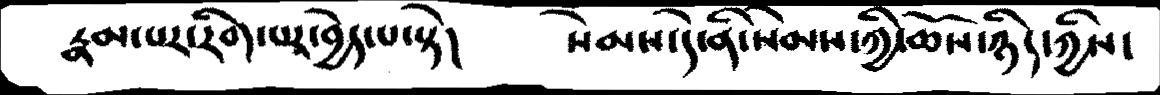རྣམ་པར་རིག་པར་བྱེད་པ་སྟེ།     སེམས་དེ་ནི་སེམས་ཀྱི་ཆོས་ཉིད་ཀྱིས་
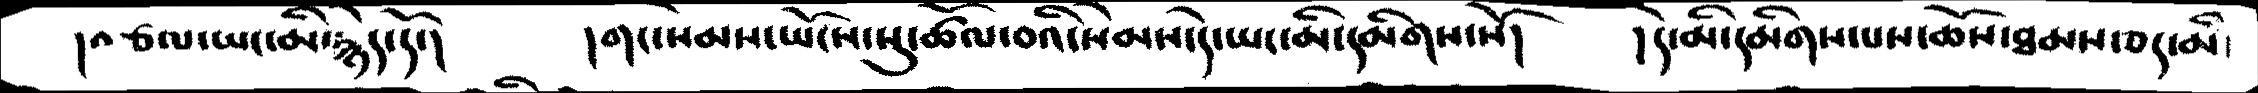།བཙལ་ཡང་མི་རྙེད་དོ་།      །གང་སེམས་ཡོངས་སུ་ཚོལ་བའི་སེམས་དེ་ཡང་མི་དམིགས་སོ།      །དེ་མི་དམིགས་པས་ཆོས་ཐམས་ཅད་མི
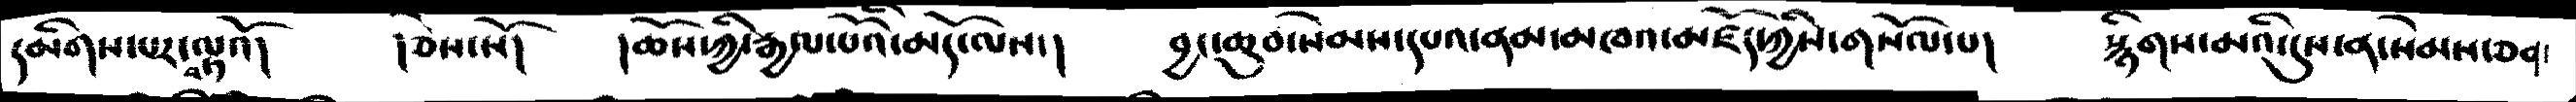དམིགས་པ་བལྟའོ།   །ཅེས་སོ།   །ཆོས་ཀྱི་རྒྱལ་པོའི་མདོ་ལས་།    བྱང་ཆུབ་སེམས་དཔའ་ནམ་མཁའ་མཛོད་ཀྱིས་གསོལ་པ།  སྙིགས་མའི་དུས་ན་སེམས་ཅན་
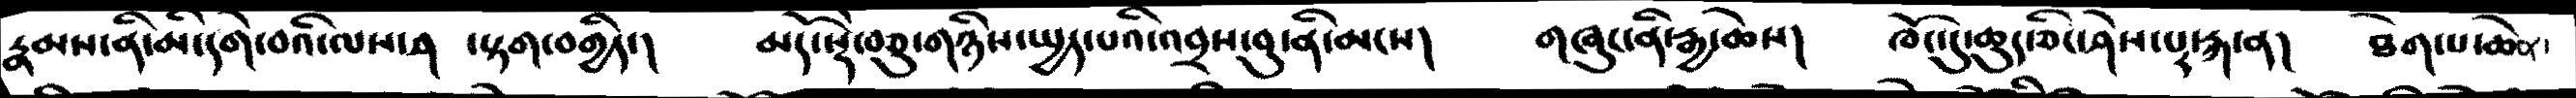རྣམས་ནི་མི་དགེ་བའི་ལས་ཤ ་སྟག་བགྱིད་།   མདོ་སྡེ་བཅུ་གཉིས་སྤྱད་པའི་འབྲས་བུ་ནི་མངས།   གཞུང་ནི་རྒྱ་ཆེས།  ཁོང་དུ་ཆུད་ཅིང་ཤེས་པར་རྐ་ན།  ཐེག་པ་ཆེན་
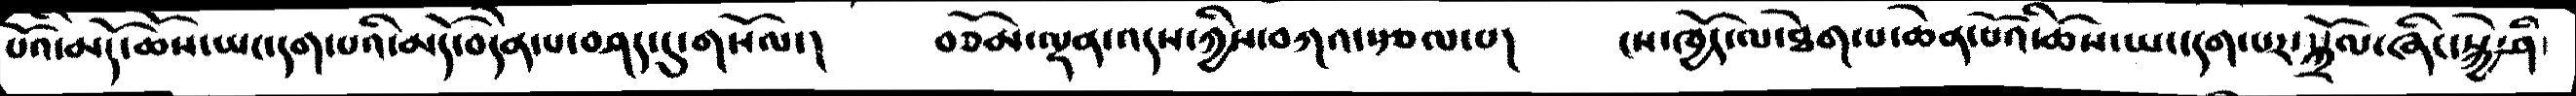པོའི་མདོ་ཆོས་ཡང་དག་པའི་མདོ་བདེན་པ་བཤད་དུ་གསོལ་།     བཅོམ་ལྡན་འདས་ཀྱིས་བཀའ་བརྩལ་པ།    ངས་ཁྱོད་ལ་ཐེག་པ་ཆེན་པོའི་ཆོས་ཡང་དག་པར་སྒྲོལ་ཞིང་སྐྱེ་ཤི་
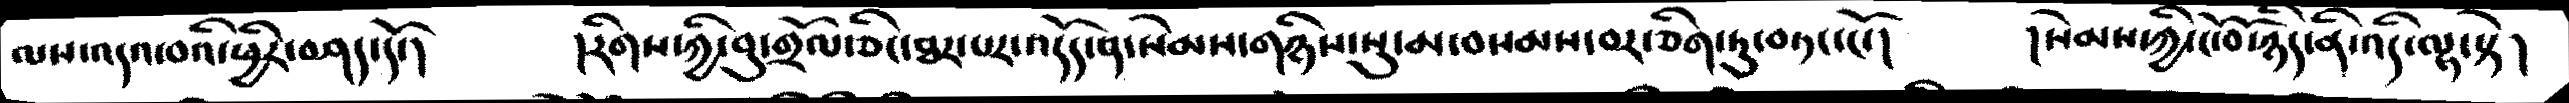ལས་འདའ་བའི་ཕྱིར་བཤད་དོ་།       །རིགས་ཀྱི་བུ་གྲོལ་ཅིང་ཐར་པར་འདོད་ན་སེམས་གཉིས་སུ་མ་བསམས་བར་ཅིག་ཏུ་བཏང་ངོ་།      །སེམས་ཀྱི་ངོ་བོ་ཉིད་ནི་འདི་ལྟ་སྟེ།
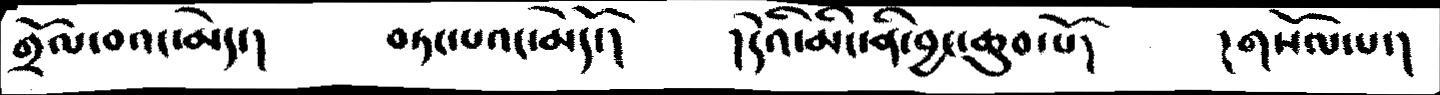གྲོལ་བའང་མེད་།    བཏང་པའང་མེདོ་།      །དེའི་མིང་ནི་བྱང་ཆུབ་པོ།        །གསོལ་པ་།
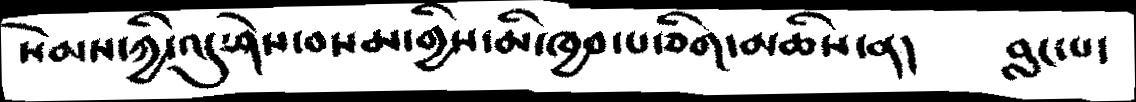སེམས་ཀྱི་འདུ་ཤེས་བསམ་གྱིས་མི་ཁྱབ་པ་ཅིག་མཆིས་ན།      བླང་པ་
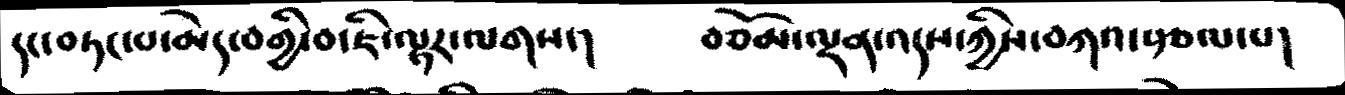དང་བཏང་པ་མེད་བགྱི་བ་ཇི་ལྟར་ལགས་།       བཅོམ་ལྡན་འདས་ཀྱིས་བཀའ་བརྩལ་པ།
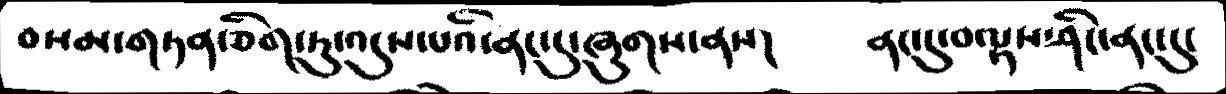བསམ་གཏན་ཅིག་ཏུ་འདུས་པའི་ནང་དུ་བཞུགས་ནས།    ནང་དུ་བལྟས་ཤིང་ནང་དུ་
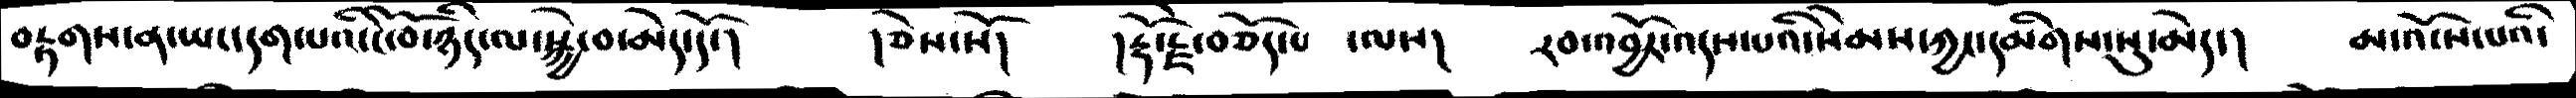བརྟགས་ན་ཡང་དག་པའི་ངོ་བོ་ཉིད་ལ་སྐྱེ་བ་མེད་དོ་།    །ཅེས་སོ།    །རྡོ་རྗེ་བཅོད་པ ་ལས།   རབ་འབྱོར་འདས་པའི་སེམས་ཀྱང་དམིགས་སུ་མེད་།     མ་འོངས་པའི་
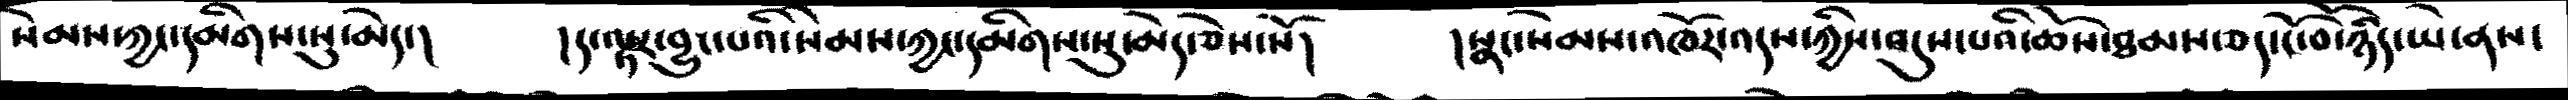སེམས་ཀྱང་དམིགས་སུ་མེད་།     །ད་ལྟར་་བྱུང་པའི་སེམས་ཀྱང་དམིགས་སུ་མེད་ཅེས་སོ།         །སྣང་སེམས་འཁོར་འདས་ཀྱིས་འདུས་པའི་ཆོས་ཐམས་ཅད་ངོ་བོ་ཉིད་ཡེ་ནས་
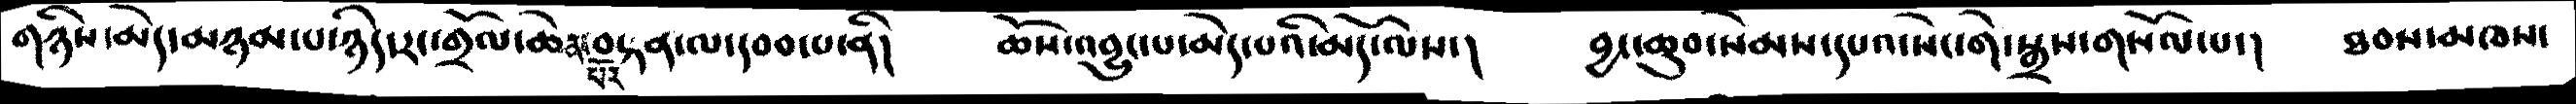གཉིས་མེད་མཉམ་པ་ཉིད་རང་གྲོལ་ཆེན་པོར་བསྟན་ལ་དབབ་ནི།  ཆོས་འབྱུང་པ་མེད་པའི་མདོ་ལས་།   བྱང་ཆུབ་སེམས་དཔའ་སེང་གེ་སྒྲས་གསོལ་པ་།   ཐབས་མཁས་
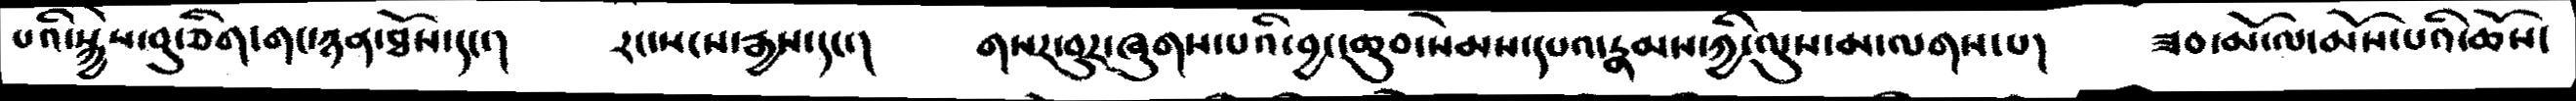པའི་སྐྱེས་བུ་ཅིག་གང་ཉན་ཐོས་དང་།    རང་སངས་རྒྱས་དང་།     གསར་བུར་ཞུགས་པའི་བྱང་ཆུབ་སེམས་དཔའ་རྣམས་ཀྱི་ལུས་མ་ལགས་པ།     ཟབ་མོ་ལ་མོས་པའི་ཆོས་
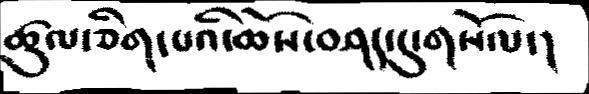ཚུལ་ཅིག་པའི་ཆོས་བཤད་དུ་གསོལ་།
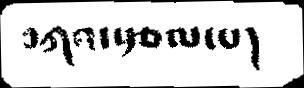བཀའ་སྩལ་པ།
